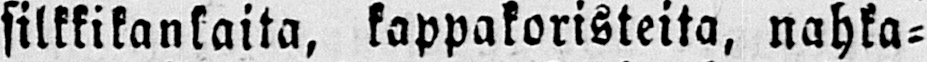silkkikankaita, kappakoristeita, nahka-
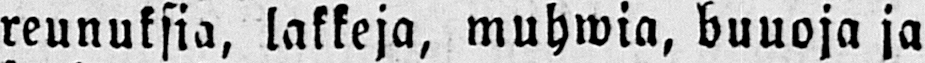reunuksia, lakkeja, muhwia, buuoja ja
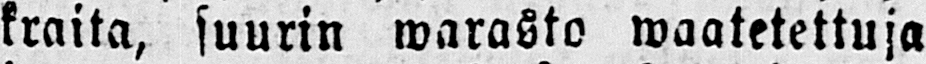kraita, suurin warasto waatetettuja
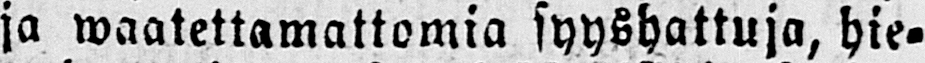ja waatettamattomia syyshattuja, hie-
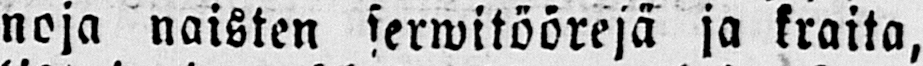noja naisten serwitöörejä ja kraita,
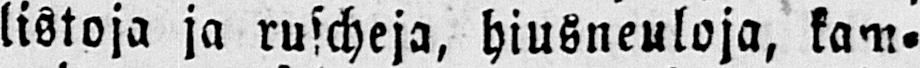listoja ja ruscheja, hiusneuloja, kam-
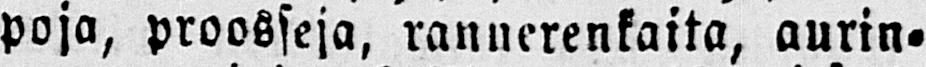poja, proosseja, rannerenkaita, aurin-
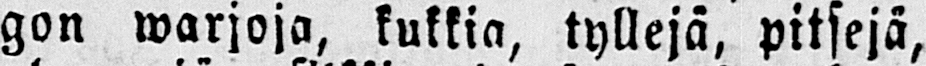gon warjoja, kukkia, tyllejä, pitsejä,
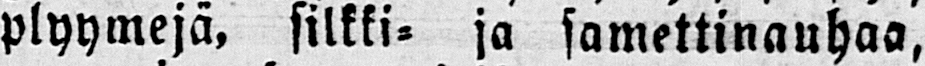plyymejä, silkki- ja samettinauhaa,
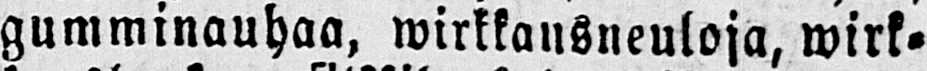gumminauhaa, wirkkausneuloja, wirk-
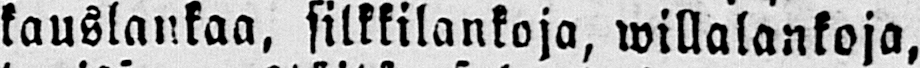kauslankaa, silkkilankoja, willalankoja,
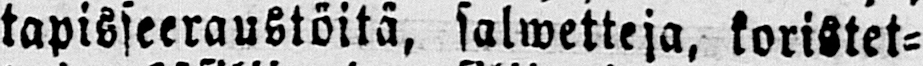tapisseeraustöitä, salwetteja, koristet-
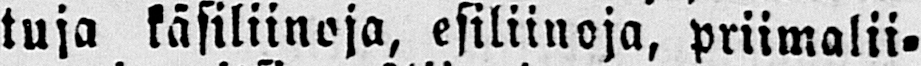tuja käsiliinoja, esiliinoja, priimalii-
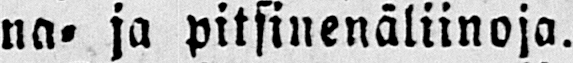na- ja pitsinenäliinoja.
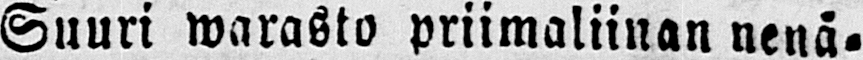Suuri warasto priimaliinan nenä-
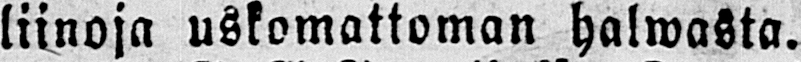liinoja uskomattoman halwasta.
